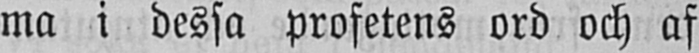ma i dessa profetens ord och af
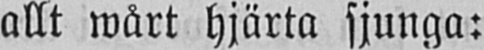allt wårt hjärta sjunga:
